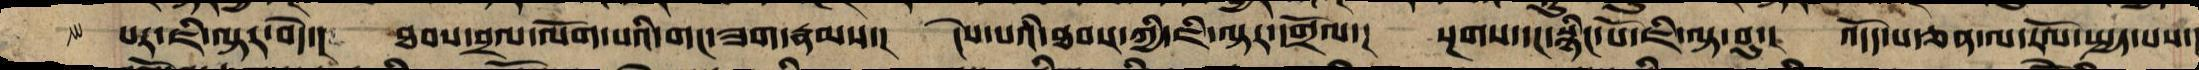པར་ཇི་ལྟར་བདེ་།  ཐབས་བྲལ་ལོག་པའི་གང་ཟག་རྣམས་།  ངེས་པའི་ཐབས་ཀྱི་ཇི་ལྟར་དགྲོལ་།  སྔགས་དང་སྙིང་པོ་ཇི་ལྟ་བུ་།  འདོད་པ་ཅན་ལ་རོལ་སྤྱད་པས་
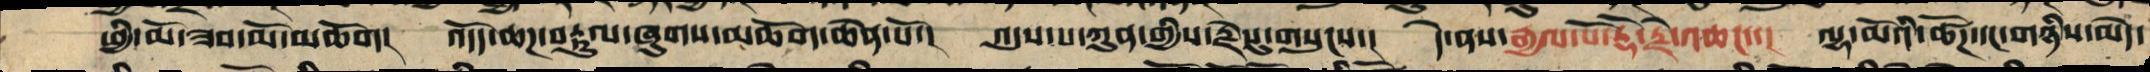ཕྱི་མོ་ཟབ་མོ་མཆོག། འདོད་ཆཌ་བརྟུལ་ཞུགས་མཆོག་ཆེན་པོ་།  འདུས་པ་ཀུན་གྱིས་རྗེསུ་གསུངས་།  དེ་ནས་རྒྱལ་པོ་རྡོ་རྗེ་འཆང་་།  ལྷ་མོའི་ཚོཌ་དང་གཉིས་མེད་
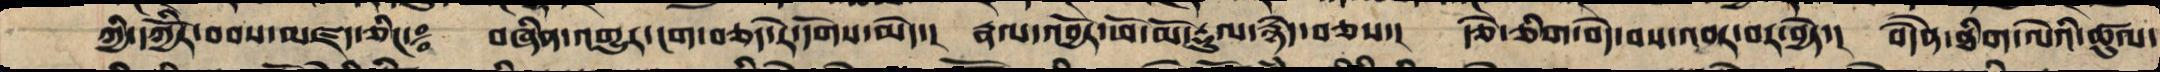ཀྱི་དཀྱིོར་དབབ་མཛད་ཅིང་༔ བཞིན་འགྱུར་ངག་བཅད་རེ་དོགས་མེད་། རྣལ་འབྱོར་ཕོ་མོ་རྡུལ་སྙེད་བཅས་། རྩེ་གཅིག་བདེ་བས་འབར་བར་བྱེ་ད། བདཻན་ཐིག་ལེའི་ཚུལ་
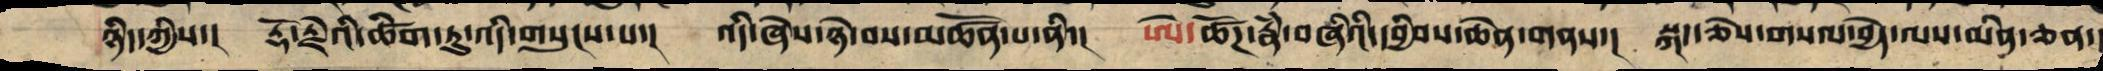ཉིད་ཀྱིས་། རྡོ་རྗེའི་ཚིག་ཏུ་འདི་གསུངས་པ་། འདི་ཞེས་ཉེ་བས་མཚོན་པ་ནི་། ཨེ་ཚོཌ་རྣཾ་བཞིའི་དབྱིབས་ཆེན་གནས་། སྐད་ཅེས་གསལ་བྱེད་ལས་མིན་ཅན་
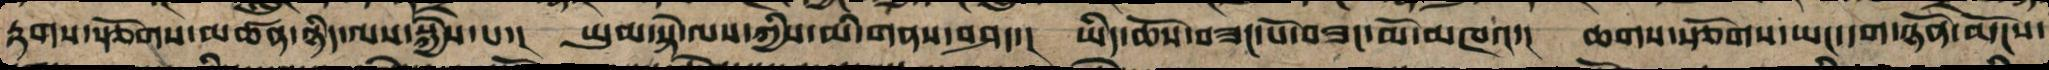རྟགས་སྩོགས་མཚན་ཉིད་ལས་སྐྱེས་པ་། ཡུམ་སྟེ་ལས་ཀྱི་མི་གནས་བཤད་།  ཡིད་ཆོས་བཟང་པོ་བཟང་མོ་མཁའ་།  ཆགས་སྩོགས་ཡང་དག་ཉོན་མོངས་
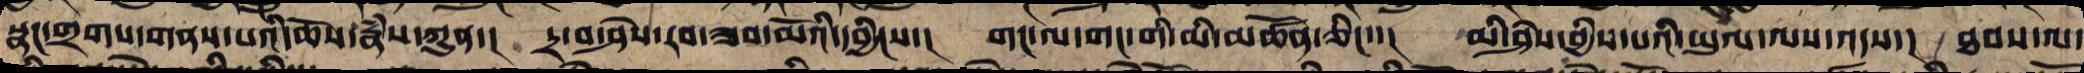སྣང་གྲག་གནས་པའི་ཆོས་རྣཾས་ཀུན་།  དྲ་བ་ཤེས་རབ་ཟབ་མོའི་དབྱིངས་། གང་ལ་གང་གི་མི་མཚོན་ཅིང་་།  མི་ཤེས་བྱིས་པའི་ཡུལ་ལས་འདས་། ཐབས་ལ་
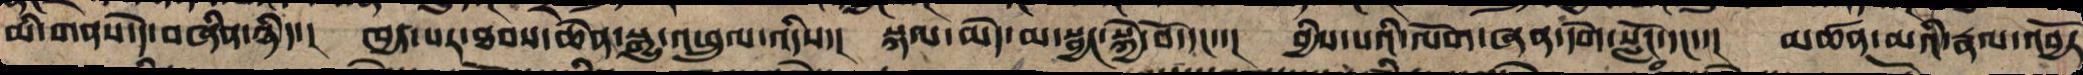མི་གནས་དེ་བཞིན་ཉིད་།  ཁྱད་པར་ཐབས་ཆེན་སྒྱུ་འཕྲུལ་འདིས་།  སྐལ་མེད་མ་སྦྱང་སྐྱེ་བོ་དང་་།  བྱིས་པའི་ལོག་ཞན་དགེ་སློང་དང་་།  མཚན་མའི་རྣལ་འབྱོར
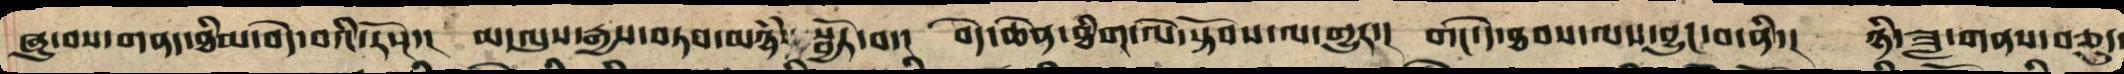ཞུ་བས་གནད་ཐིམ་བདེ་བའི་རོས་། མ་ལུས་རྒྱས་བཏབ་མཉཾ་སྦྱོར་བ་། བདེ་ཆེན་ཐིག་ལེ་སྟོབས་ལ་གྱུར་།  གང་དེ་ཐབས་ལས་བྱུང་བ་ནི་།  ཉི་ཟླ་གནས་བཅུད་
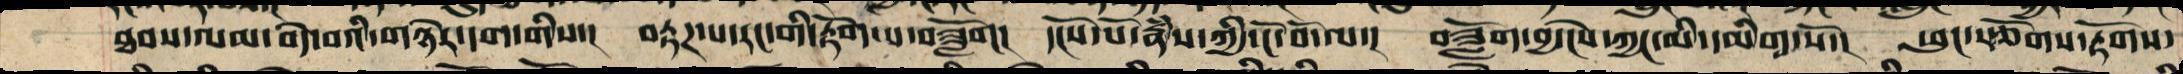ཐབས་ལམ་བདེ་བའི་གཉེར་དག་གིས་།  བརྟཌ་པ་རང་གི་རྟོག་པ་བཟློག།  དངོས་པོ་རྣཾས་ཀྱི་ངོ་བོ་ལ་།  བཟློག་བྱ་ངེས་ཀྱང་མི་དམིགས་སོ་།  ཕུང་སྩོགས་རྟོགས་
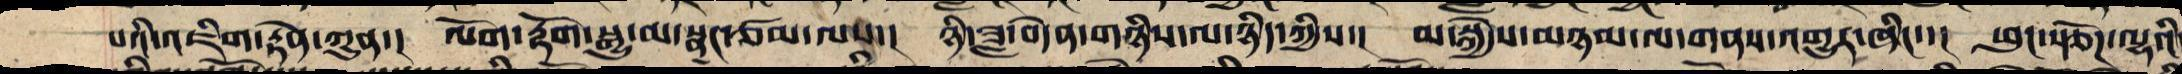པའི་འཇིག་རྟེན་ཀུན་།  ལོག་རྟོག་སྒྱུ་མ་སྣང་ཙམ་ལས་། ཉི་ཟླ་བདེན་གཉིས་ལ་ཉིད་ཀྱིས་། མ་སྐྱེས་མཉམ་ལ་གནས་འགྱུར་ཞིང་་། ཕུང་སྩོཌ་ལྷའི
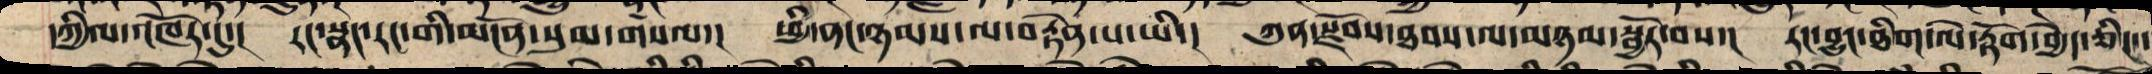དཀྱིལ་འཁོར་དུ་། རང་སྣང་རང་གི་མངོན་སུམ་གསལ་། ཕྱི་ནང་ཉམས་ལ་བརྟེན་པ་ཡི་། ཀུན་སྫོབས་ཐབས་ལ་མཉམ་སྦྱོར་བས་། རང་བྱུང་ཐིག་ལེ་རྟོག་བྱེད་ཅིང་།
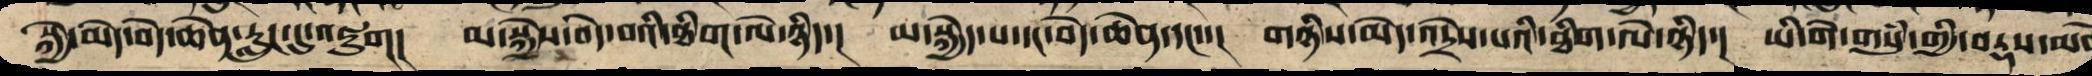སྐྱེ་མེད་བདེ་ཆེན་རླུང་དུ་འཇུག། མ་སྐྱེས་བདེ་བའི་ཐིག་ལེ་ཉིད། མ་སྐྱེད་པ་དང་བདེ་ཆེན་དང་་། གཉིས་མེད་འདྲེས་པའི་ཐིག་ལེ་ཉིད་། ཡི་གེ་གསུཾ་གྱི་བརྡས་མ
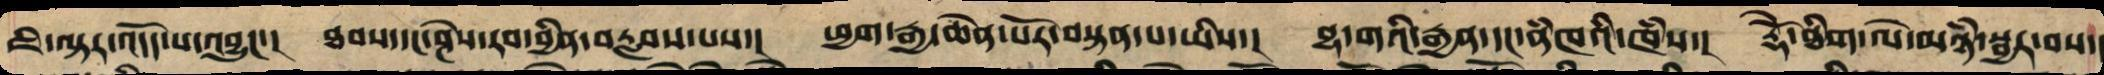ཇི་ལྟར་འདོད་པ་འབྱུང་་།  ཐབས་དང་ཤེས་རབ་བྱིན་བརླབས་པས་།  ཕྱག་རྒྱ་ཆེན་པོར་བསྟན་པ་ཡིས་།  བྷ་གའི་རྒྱན་དང་ནཾཁའི་ཁཾས་།  རྡོེ་ཐིག་ལེ་མཉཾ་སྦྱར་བས་།
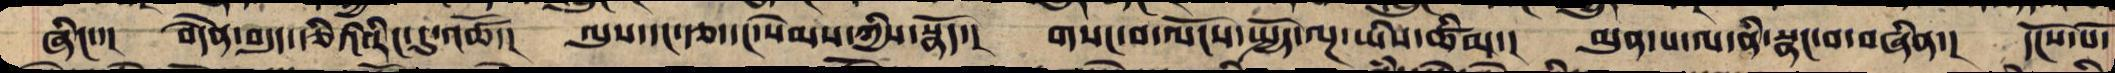ཞིང་།  བདེེཻན་བདུད་རྩིའི་རིང་དུ་འཚོ་།  ལུས་དང་རྩ་དང་སེམས་ཀྱིས་སྣོད་།  གསང་བ་ལོངས་སྤྱོད་ལྔ་ཡིས་ཚིམ་།  མུན་པ་ལ་ནི་སྣང་བ་བཞིན་།  དངོས་པོ་
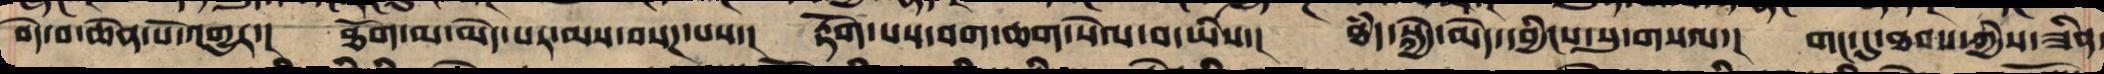བདེ་བ་ཆེན་པོ་འགྱུར་།  ཐོག་མ་མེད་པར་ལས་བསཌ་པས་།  རྟོག་པས་བག་ཆག་སེལ་བ་ཡིས་།  ཐཾད་སྐྱེད་མེད་དབྱིངས་སུ་གསལ་། གང་དུ་ཐབས་ཀྱིས་ཟིན་
